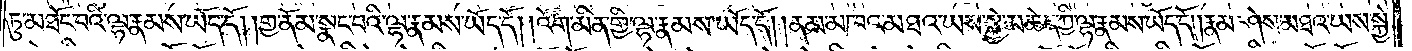ཏུ་མཐོང་བའི་ལྷ་རྣམས་ཡོད་དོ། །གྱ་ནོམ་སྣང་བའི་ལྷ་རྣམས་ཡོད་དོ། །འོག་མིན་གྱི་ལྷ་རྣམས་ཡོད་དོ། །ནམ་མཁའ་མཐའ་ཡས་སྐྱེ་མཆེད་ཀྱི་ལྷ་རྣམས་ཡོད་དོ། །རྣམ་ཤེས་མཐའ་ཡས་སྐྱེ་
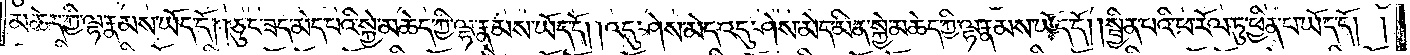མཆེད་ཀྱི་ལྷ་རྣམས་ཡོད་དོ། །ཅུང་ཟད་མེད་པའི་སྐྱེ་མཆེད་ཀྱི་ལྷ་རྣམས་ཡོད་དོ། །འདུ་ཤེས་མེད་འདུ་ཤེས་མེད་མིན་སྐྱེ་མཆེད་ཀྱི་ལྷ་རྣམས་ཡོད་དོ། །སྦྱིན་པའི་ཕ་རོལ་ཏུ་ཕྱིན་པ་ཡོད་དོ། །
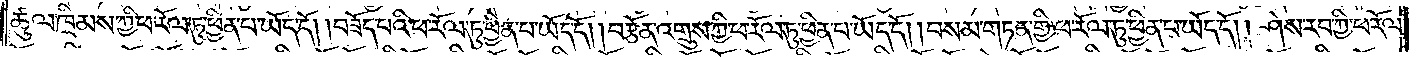ཚུལ་ཁྲིམས་ཀྱི་ཕ་རོལ་ཏུ་ཕྱིན་པ་ཡོད་དོ། །བཟོད་པའི་ཕ་རོལ་ཏུ་ཕྱིན་པ་ཡོད་དོ། །བརྩོན་འགྲུས་ཀྱི་ཕ་རོལ་ཏུ་ཕྱིན་པ་ཡོད་དོ། །བསམ་གཏན་གྱི་ཕ་རོལ་ཏུ་ཕྱིན་པ་ཡོད་དོ། །ཤེས་རབ་ཀྱི་ཕ་རོལ་
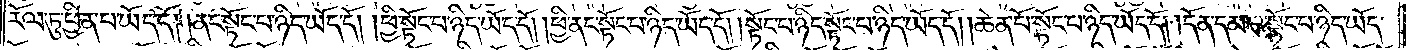རོལ་ཏུ་ཕྱིན་པ་ཡོད་དོ། །ནང་སྟོང་པ་ཉིད་ཡོད་དོ། །ཕྱི་སྟོང་པ་ཉིད་ཡོད་དོ། །ཕྱི་ནང་སྟོང་པ་ཉིད་ཡོད་དོ། །སྟོང་པ་ཉིད་སྟོང་པ་ཉིད་ཡོད་དོ། །ཆེན་པོ་སྟོང་པ་ཉིད་ཡོད་དོ། །དོན་དམ་པ་སྟོང་པ་ཉིད་ཡོད་
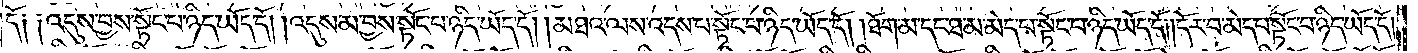དོ༑ ༑འདུས་བྱས་སྟོང་པ་ཉིད་ཡོད་དོ། །འདུས་མ་བྱས་སྟོང་པ་ཉིད་ཡོད་དོ། །མཐའ་ལས་འདས་པ་སྟོང་པ་ཉིད་ཡོད་དོ། །ཐོག་མ་དང་ཐ་མ་མེད་པ་སྟོང་པ་ཉིད་ཡོད་དོ། །དོར་བ་མེད་པ་སྟོང་པ་ཉིད་ཡོད་དོ།
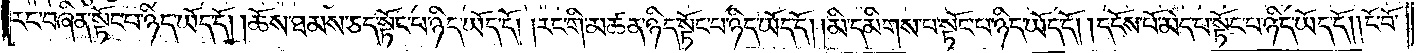རང་བཞིན་སྟོང་པ་ཉིད་ཡོད་དོ། །ཆོས་ཐམས་ཅད་སྟོང་པ་ཉིད་ཡོད་དོ། །རང་གི་མཚན་ཉིད་སྟོང་པ་ཉིད་ཡོད་དོ། །མི་དམིགས་པ་སྟོང་པ་ཉིད་ཡོད་དོ། །དངོས་པོ་མེད་པ་སྟོང་པ་ཉིད་ཡོད་དོ། །ངོ་བོ་
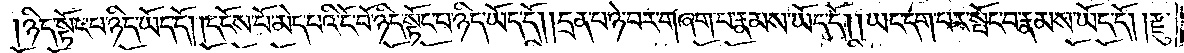ཉིད་སྟོང་པ་ཉིད་ཡོད་དོ། །དངོས་པོ་མེད་པའི་ངོ་བོ་ཉིད་སྟོང་པ་ཉིད་ཡོད་དོ། །དྲན་པ་ཉེ་བར་གཞག་པ་རྣམས་ཡོད་དོ། །ཡང་དག་པར་སྤོང་བ་རྣམས་ཡོད་དོ། །རྫུ་
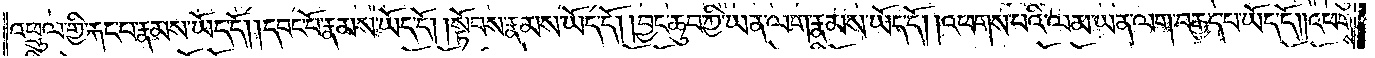འཕྲུལ་གྱི་རྐང་པ་རྣམས་ཡོད་དོ། །དབང་པོ་རྣམས་ཡོད་དོ། །སྟོབས་རྣམས་ཡོད་དོ། །བྱང་ཆུབ་ཀྱི་ཡན་ལག་རྣམས་ཡོད་དོ། །འཕགས་པའི་ལམ་ཡན་ལག་བརྒྱད་པ་ཡོད་དོ། །འཕགས་
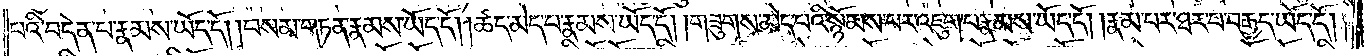པའི་བདེན་པ་རྣམས་ཡོད་དོ། །བསམ་གཏན་རྣམས་ཡོད་དོ། །ཚད་མེད་པ་རྣམས་ཡོད་དོ། །གཟུགས་མེད་པའི་སྙོམས་པར་འཇུག་པ་རྣམས་ཡོད་དོ། །རྣམ་པར་ཐར་པ་བརྒྱད་ཡོད་དོ། །
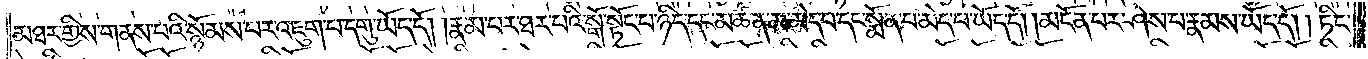མཐར་གྱིས་གནས་པའི་སྙོམས་པར་འཇུག་པ་དགུ་ཡོད་དོ། །རྣམ་པར་ཐར་པའི་སྒོ་སྟོང་པ་ཉིད་དང་མཚན་མ་མེད་པ་དང་སྨོན་པ་མེད་པ་ཡོད་དོ། །མངོན་པར་ཤེས་པ་རྣམས་ཡོད་དོ། །ཏིང་
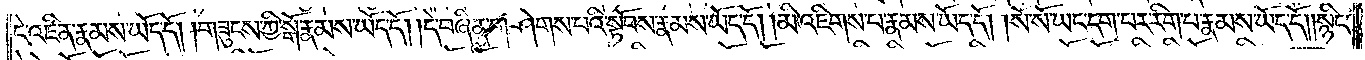ངེ་འཛིན་རྣམས་ཡོད་དོ། །གཟུངས་ཀྱི་སྒོ་རྣམས་ཡོད་དོ། །དེ་བཞིན་གཤེགས་པའི་སྟོབས་རྣམས་ཡོད་དོ། །མི་འཇིགས་པ་རྣམས་ཡོད་དོ། །སོ་སོ་ཡང་དག་པར་རིག་པ་རྣམས་ཡོད་དོ། །སྙིང་
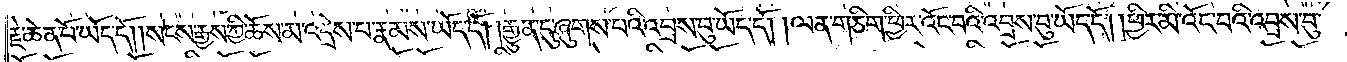རྗེ་ཆེན་པོ་ཡོད་དོ། །སངས་རྒྱས་ཀྱི་ཆོས་མ་འདྲེས་པ་རྣམས་ཡོད་དོ། །རྒྱུན་དུ་ཞུགས་པའི་འབྲས་བུ་ཡོད་དོ། །ལན་གཅིག་ཕྱིར་འོང་བའི་འབྲས་བུ་ཡོད་དོ། །ཕྱིར་མི་འོང་བའི་འབྲས་བུ་
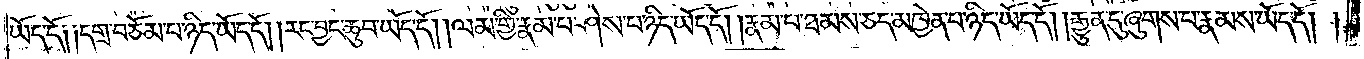ཡོད་དོ༑ ༑དགྲ་བཅོམ་པ་ཉིད་ཡོད་དོ། །རང་བྱང་ཆུབ་ཡོད་དོ། །ལམ་གྱི་རྣམ་པ་ཤེས་པ་ཉིད་ཡོད་དོ། །རྣམ་པ་ཐམས་ཅད་མཁྱེན་པ་ཉིད་ཡོད་དོ། །རྒྱུན་དུ་ཞུགས་པ་རྣམས་ཡོད་དོ། །
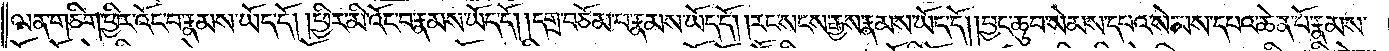ལན་གཅིག་ཕྱིར་འོང་བ་རྣམས་ཡོད་དོ། །ཕྱིར་མི་འོང་བ་རྣམས་ཡོད་དོ། །དགྲ་བཅོམ་པ་རྣམས་ཡོད་དོ། །རང་སངས་རྒྱས་རྣམས་ཡོད་དོ། །བྱང་ཆུབ་སེམས་དཔའ་སེམས་དཔའ་ཆེན་པོ་རྣམས་
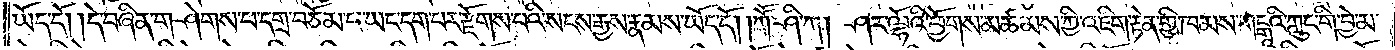ཡོད་དོ། །དེ་བཞིན་གཤེགས་པ་དགྲ་བཅོམ་པ་ཡང་དག་པར་རྫོགས་པའི་སངས་རྒྱས་རྣམས་ཡོད་དོ། །ཀཽ་ཤི་ཀ། ཤར་ལྷོའི་ཕྱོགས་མཚམས་ཀྱི་འཇིག་རྟེན་གྱི་ཁམས་གངྒཱའི་ཀླུང་གི་བྱེ་མ་
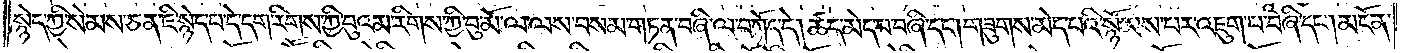སྙེད་ཀྱི་སེམས་ཅན་ཇི་སྙེད་པ་དེ་དག་རིགས་ཀྱི་བུའམ་རིགས་ཀྱི་བུ་མོ་ལ་ལས་བསམ་གཏན་བཞི་ལ་བཀོད་དེ། ཚད་མེད་པ་བཞི་དང༌། གཟུགས་མེད་པའི་སྙོམས་པར་འཇུག་པ་བཞི་དང༌། མངོན་
